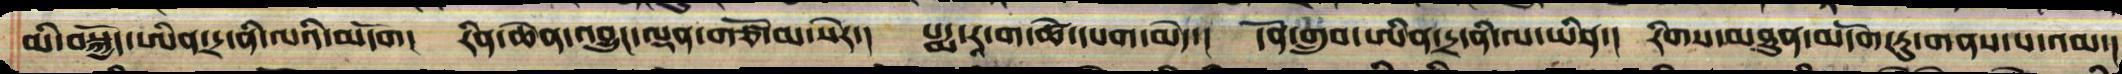མི་བསྐྱོད་ཨིན་དྲ་ནི་ལའི་མདོག།  རིན་ཆེན་འབྱུང་ལྡན་གཙོ་མ་གསེར་།  པདྨ་རཱ་ག་ཚེ་དཔག་མེད་།  དོན་གྲུབ་ཨིན་དྲ་ནི་ལ་ཡིན་།  རིགས་མཐུན་མདོག་ཏུ་གནས་པ་འམ་།
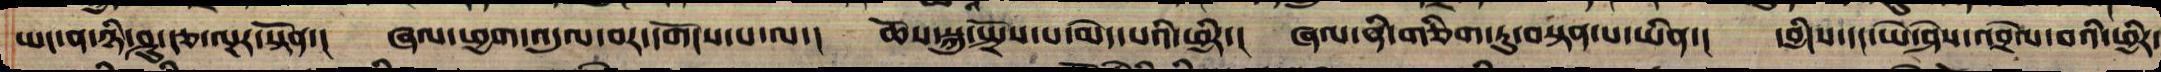ཡང་ན་ཉི་ཤུ་རྩ་ལྔར་སྟོན་།  ཞལ་ཕྱག་འདུལ་བར་དགོངས་པ་ལ་།  ཆོས་སྐུ་སྤྲོས་པ་མེད་པའི་ཕྱིར་།  ཞལ་ནི་གཅིག་ཏུ་བསྟན་པ་ཡིན་།  དབྱིངས་དང་ཡེ་ཤེས་འབྲེལ་པའི་ཕྱིར་
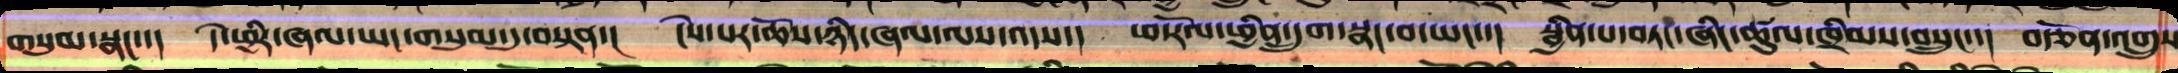གསུམ་སྣང་་།  དེ་ཕྱིར་ཞལ་ཡང་གསུམ་དུ་བསྟན་།  ངེས་པར་ཆོས་ཉིད་ཞལ་ལས་འདས་།  ཕ་རོལ་ཕྱིན་དྲུག་སྣང་བ་ཡང་།  སྦྱིན་པ་བཏང་ཞིང་ཚུལ་ཁྲིམས་བསྲུང་་།  བརྩོན་འགྲུས
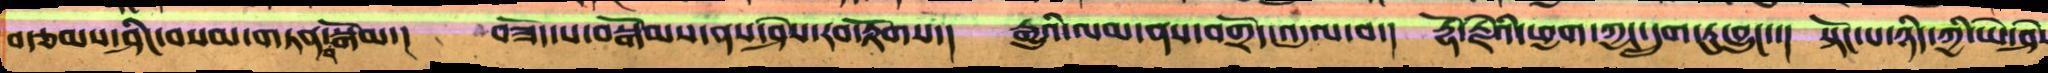བརྩམས་ཤིང་བསམ་གཏན་སྒོམ་།  བཟོད་པ་བསྒོམས་ནས་ཤེས་རབ་རྟོགས་།  རྒྱུའི་ལམ་ནས་བགྲོད་འདུལ་བ།  རྡོ་རྗེའི་ཕྱག་ཀྱང་དྲུག་ཏུ་བྱུང་་།  སྟོང་པ་ཉིད་ཀྱི་ཡེ་ཤེ
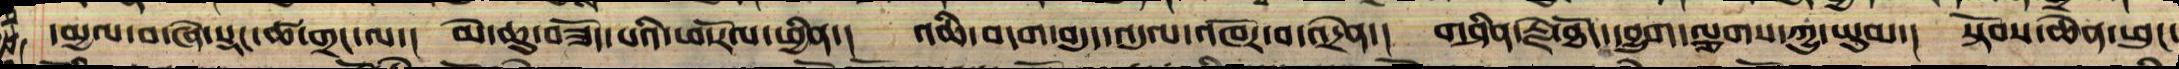དམྱལ་བ་ཞེ་སྡང་ཚ་གྲང་ལ་། མེ་ཆུ་བཟོད་པའི་ཕ་རོལ་ཕྱིན་། འཆི་བདག་བདུད་འདུལ་འཁོར་བ་འདྲེན་། གཤིན་རྗེ་ཐོད་དབྱུག་ལྕགས་ཀྱུ་ཡུམ་། སྟོབས་ཆེན་ཕུང་
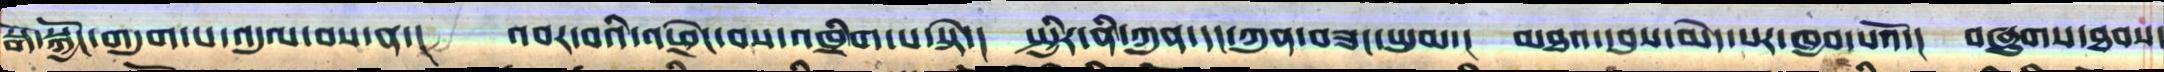སྒོ་སྐྱོང་གདུག་པ་འདུལ་བས་ན་།  འབར་བའི་འཕྲེང་བས་འཁྲིགས་པ་སྟེ་།  སྤྱིར་ནི་ཀུན་དང་ཀུན་བཟང་ཡུམ།  མཐའ་དབུས་མེད་པར་ཁྱབ་པའོ་། བཞུགས་ཐབས་
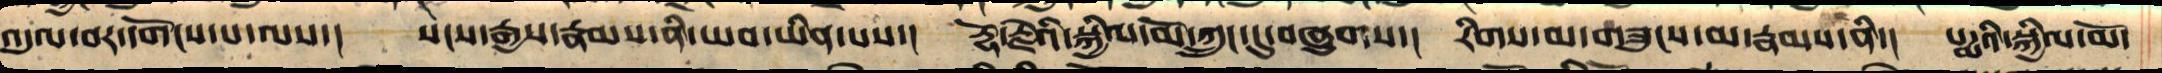འདུལ་བར་དགོངས་པ་ལས་།   སངས་རྒྱས་རྣམས་ནི་ཡབ་ཡིན་པས་།  རྡོ་རྗེའི་སྐྱིལ་མོ་ཀྲུང་དུ་བཞུགས་།  རིགས་མ་གཟུངས་མ་་རྣམས་ནི་།  པདྨའི་སྐྱིལ་མོ་
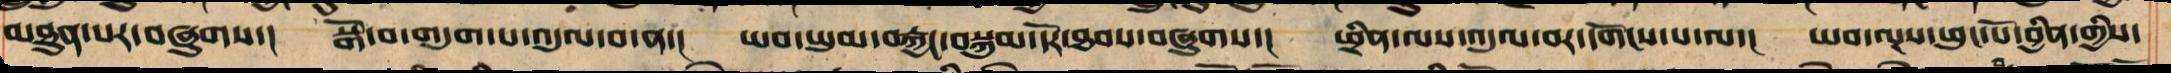མཐུན་པར་བཞུགས་།  སྒོ་བ་གདུག་པ་འདུལ་བས་ན་།  ཡབ་ཡུམ་བརྐྱང་བསྐུམ་དོར་ཐབས་བཞུགས་།  ཕྲིན་ལས་འདུལ་བར་དགོངས་པ་ལ་།  ཡབ་ལྔས་ཕུང་པོ་བྱིན་གྱིས་
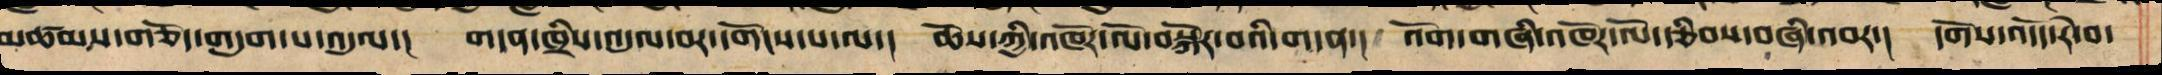མཚམས་གཅོད་གདུག་པ་འདུལ་།  གདན་ཁྲིས་འདུལ་བར་དགོངས་པ་ལ་།  ཆོས་ཀྱི་འཁོར་ལོ་བསྐོར་བའི་གདན་།  འོག་གཞི་འཁོར་ལོ་རྩིབས་བཞི་འབར་།  དགོས་འདོད་རེ་བ་
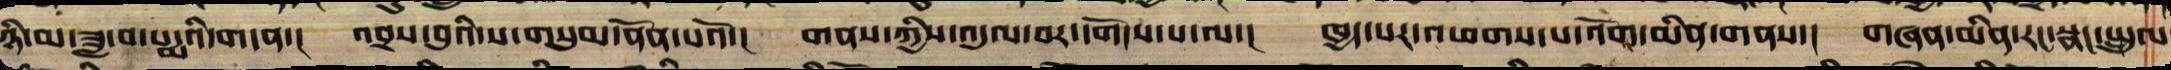ཉི་མ་ཟླ་བ་པདྨའི་གདན་།  འབྲས་བུའི་ས་གསུམ་ནོན་པའོ་།  གནས་ཀྱིས་འདུལ་བར་དགོངས་པ་ལ་།  ཁྱད་པར་འཕགས་པ་འོག་མིན་གནས་།  གཞན་མིན་རང་སྣང་སྤྲུལ
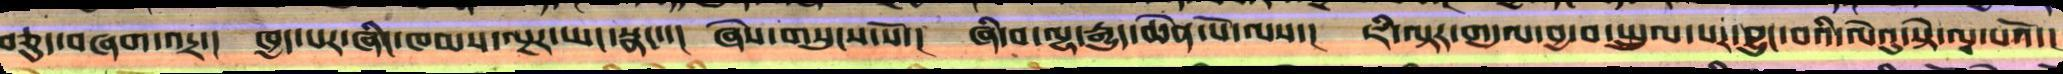བཅུད་བཞག་འདྲ། ཁྱད་པར་ཞིང་ཁམས་ལྔར་ཡང་སྣང་་། ཞེས་གསུངས་སོ། ཞི་བ་ལྷ་རྒྱུད་ཆེན་པོ་ལས་། ཇི་ལྟར་གདུལ་བྱ་བ་སྤྲུལ་པར་བྱུང་བའི་ལེའུ་སྟེ་ལྔ་པའོ་།།
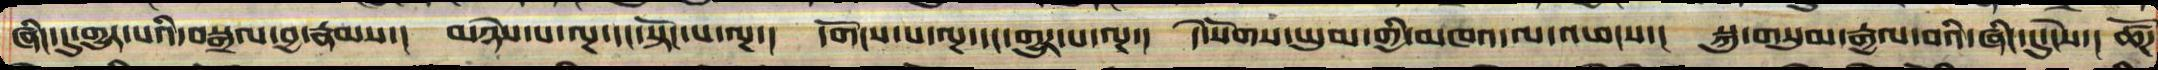ཞིང་དུ་གྱུར་པའི་བསྒྲལ་བྱ་རྣམས་།  མཉེས་པ་ལྔ་དང་སྟོང་པ་ལྔ་།  དགོངས་པ་ལྔ་དང་གྱུར་པ་ལྔ་།  དེ་སོགས་ཡུམ་གྱི་མཁའ་ལ་འཕངས་།  སྐུ་གསུམ་རྒྱལ་བའི་ཞིང་དུ་ངེས་།  ཚོཌ
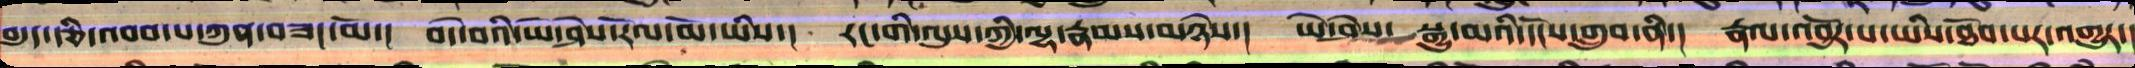བདུད་རྩི་འབབ་པ་ཀུན་བཟང་མོ་།  བདེ་བའི་ཡེ་ཤེས་རོལ་མོ་ཡིས་།  རང་གི་ལུས་ཀྱི་ལྷ་རྣམས་མཉེས་།  ཡེ་ཤེས་སྒྱུ་མའི་དངོས་གྲུབ་ནི་།  རྣལ་འབྱོར་པ་ཡིས་ཐོབ་པར་འགྱུར་
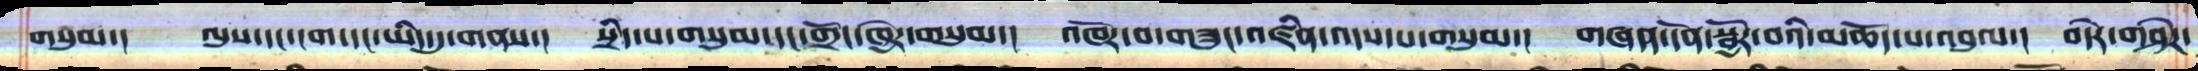གསུམ་།  ལུས་དང་ངག་དང་ཡིད་དུ་གནས་།  སྲིད་པ་གསུམ་དང་གྲོང་ཁྱེར་གསུམ་།  འཁོར་བ་གཟུང་འཛིན་འདས་པ་གསུམ་།  གཞན་དོན་སྦྱོར་བའི་མཆོད་པ་འབུལ་།  བདེར་གཤེཌ་
